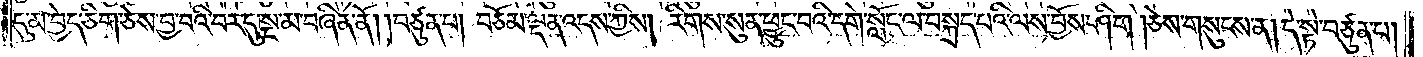དུ་མ་བྱེད་ཅིག་ཅེས་བྱ་བའི་བར་དུ་སྔ་མ་བཞིན་ནོ། །བཙུན་པ། བཅོམ་ལྡན་འདས་ཀྱིས། རིགས་སུན་ཕྱུང་བའི་དགེ་སློང་ལ་བསྐྲད་པའི་ལས་བྱོས་ཤིག །ཅེས་གསུངས་ན། དེ་སྟེ་བཙུན་པ།
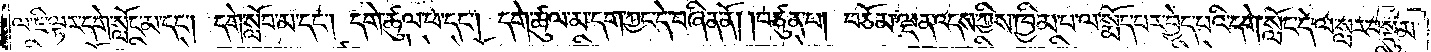ལ་ཇི་ལྟར་དགེ་སློང་མ་དང༌། དགེ་སློབ་མ་དང༌། དགེ་ཚུལ་ཕ་དང༌། དགེ་ཚུལ་མ་དག་ཀྱང་དེ་བཞིན་ནོ། །བཙུན་པ། བཅོམ་ལྡན་འདས་ཀྱིས་ཁྱིམ་པ་ལ་སྨོད་པར་བྱེད་པའི་དགེ་སློང་དེ་ལ་སླར་བསྡུམ་
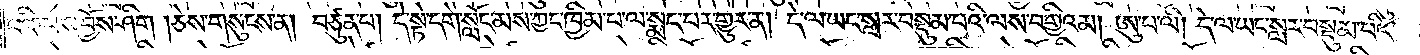པའི་ལས་བྱོས་ཤིག །ཅེས་གསུངས་ན། བཙུན་པ། དེ་སྟེ་དགེ་སློང་མས་ཀྱང་ཁྱིམ་པ་ལ་སྨད་པར་གྱུར་ན། དེ་ལ་ཡང་སླར་བསྡུམ་པའི་ལས་བགྱིའམ། ཨུ་པ་ལི། དེ་ལ་ཡང་སླར་བསྡུམ་པའི་
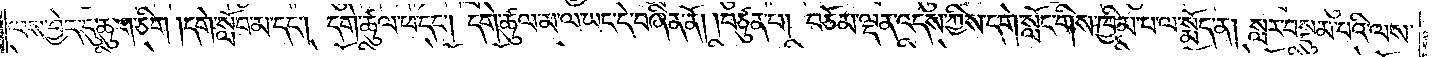ལས་བྱེད་དུ་ཆུག་ཅིག །དགེ་སློབ་མ་དང༌། དགེ་ཚུལ་ཕ་དང༌། དགེ་ཚུལ་མ་ལ་ཡང་དེ་བཞིན་ནོ། །བཙུན་པ། བཅོམ་ལྡན་འདས་ཀྱིས་དགེ་སློང་གིས་ཁྱིམ་པ་ལ་སྨོད་ན། སླར་བསྡུམ་པའི་ལས་
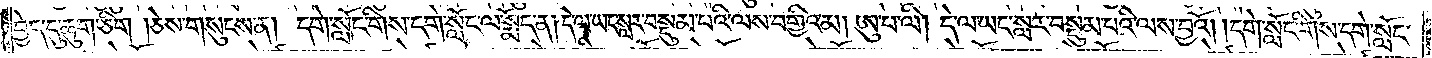བྱེད་དུ་ཆུག་ཅིག །ཅེས་གསུངས་ན། དགེ་སློང་གིས་དགེ་སློང་ལ་སྨོད་ན། དེ་ལ་ཡང་སླར་བསྡུམ་པའི་ལས་བགྱིའམ། ཨུ་པ་ལི། དེ་ལ་ཡང་སླར་བསྡུམ་པའི་ལས་བྱའོ། །དགེ་སློང་གིས་དགེ་སློང་
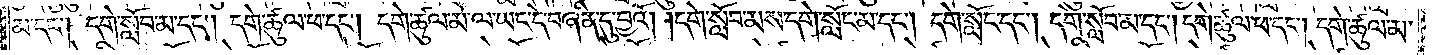མ་དང༌། དགེ་སློབ་མ་དང༌། དགེ་ཚུལ་ཕ་དང༌། དགེ་ཚུལ་མ་ལ་ཡང་དེ་བཞིན་དུ་བྱའོ། །དགེ་སློབ་མས་དགེ་སློང་མ་དང༌། དགེ་སློང་དང༌། དགེ་སློབ་མ་དང༌། དགེ་ཚུལ་ཕ་དང༌། དགེ་ཚུལ་མ་
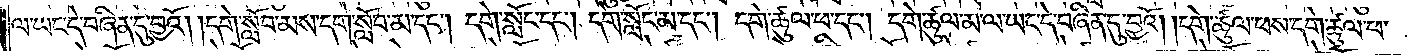ལ་ཡང་དེ་བཞིན་དུ་བྱའོ། །དགེ་སློབ་མས་དགེ་སློབ་མ་དང༌། དགེ་སློང་དང༌། དགེ་སློང་མ་དང༌། དགེ་ཚུལ་ཕ་དང༌། དགེ་ཚུལ་མ་ལ་ཡང་དེ་བཞིན་དུ་བྱའོ། །དགེ་ཚུལ་ཕས་དགེ་ཚུལ་ཕ་
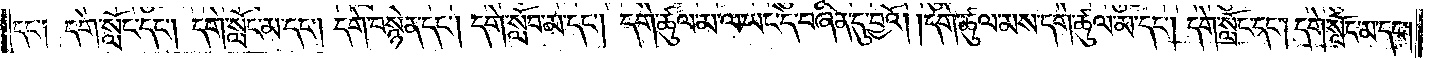དང༌། དགེ་སློང་དང༌། དགེ་སློང་མ་དང༌། དགེ་བསྙེན་དང༌། དགེ་སློབ་མ་དང༌། དགེ་ཚུལ་མ་ལ་ཡང་དེ་བཞིན་དུ་བྱའོ། །དགེ་ཚུལ་མས་དགེ་ཚུལ་མ་དང༌། དགེ་སློང་དང༌། དགེ་སློང་མ་དང༌།
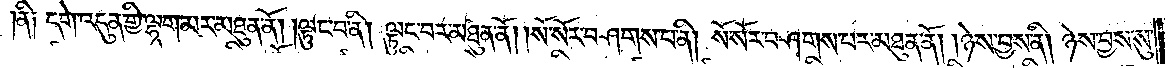ནི༑ དགེ་འདུན་གྱི་ལྷག་མར་མཐུན་ནོ། །ལྟུང་བ་ནི། ལྟུང་བར་མཐུན་ནོ། །སོ་སོར་བཤགས་པ་ནི། སོ་སོར་བཤགས་པར་མཐུན་ནོ། །ཉེས་བྱས་ནི། ཉེས་བྱས་སུ་
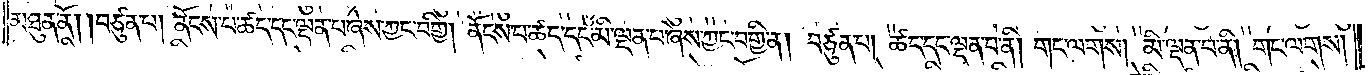མཐུན་ནོ། །བཙུན་པ། ནོངས་པ་ཚད་དང་ལྡན་པ་ཞེས་ཀྱང་བགྱི། ནོངས་པ་ཚད་དང་མི་ལྡན་པ་ཞེས་ཀྱང་བགྱི་ན། བཙུན་པ། ཚད་དང་ལྡན་པ་ནི། གང་ལགས། མི་ལྡན་པ་ནི། གང་ལགས།
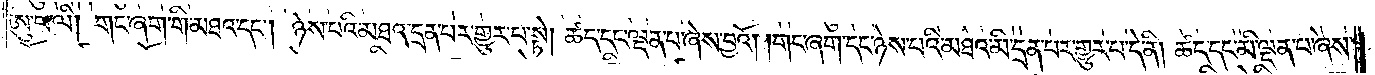ཨུ་པ་ལི། གང་ཞག་གི་མཐའ་དང༌། ཉེས་པའི་མཐའ་དྲན་པར་གྱུར་པ་སྟེ། ཚད་དང་ལྡན་པ་ཞེས་བྱའོ། །གང་ཞག་དང་ཉེས་པའི་མཐའ་མི་དྲན་པར་གྱུར་པ་དེ་ནི། ཚད་དང་མི་ལྡན་པ་ཞེས་
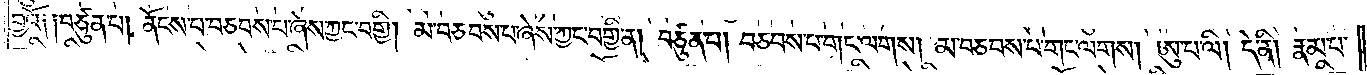བྱའོ༑ ༑བཙུན་པ། ནོངས་པ་བཅབས་པ་ཞེས་ཀྱང་བགྱི། མ་བཅབས་པ་ཞེས་ཀྱང་བགྱི་ན། བཙུན་པ། བཅབས་པ་གང་ལགས། མ་བཅབས་པ་གང་ལགས། ཨུ་པ་ལི། དེ་ནི། རྣམ་པ་
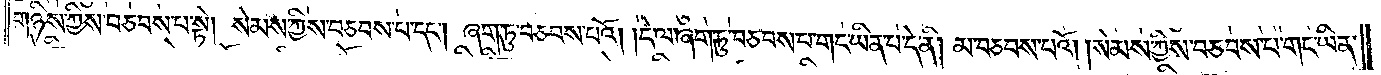གཉིས་ཀྱིས་བཅབས་པ་སྟེ། སེམས་ཀྱིས་བཅབས་པ་དང༌། ཞག་ཏུ་བཅབས་པའོ། །དེ་ལ་ཞག་ཏུ་བཅབས་པ་གང་ཡིན་པ་དེ་ནི། མ་བཅབས་པའོ། །སེམས་ཀྱིས་བཅབས་པ་གང་ཡིན་
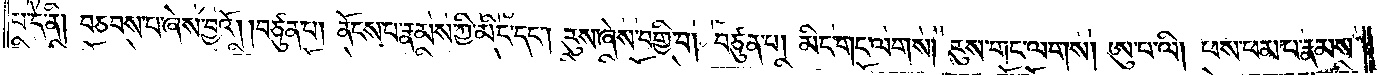པ་དེ་ནི། བཅབས་པ་ཞེས་བྱའོ། །བཙུན་པ། ནོངས་པ་རྣམས་ཀྱི་མིང་དང༌། རུས་ཞེས་བགྱི་བ། བཙུན་པ། མིང་གང་ལགས། རུས་གང་ལགས། ཨུ་པ་ལི། ཕས་ཕམ་པ་རྣམས་
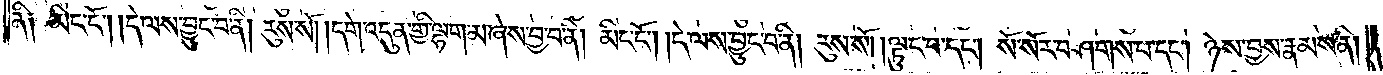ནི། མིང་ངོ༌། །དེ་ལས་བྱུང་བ་ནི། རུས་སོ། །དགེ་འདུན་གྱི་ལྷག་མ་ཞེས་བྱ་བ་ནི། མིང་ངོ༌། །དེ་ལས་བྱུང་བ་ནི། རུས་སོ། །ལྟུང་བ་དང༌། སོ་སོར་བཤགས་པ་དང༌། ཉེས་བྱས་རྣམས་ནི།
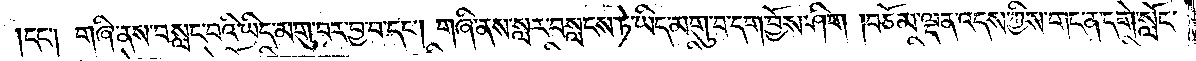དང༌། གཞི་ནས་བསླང་བའི་ཡིད་མགུ་བར་བྱ་བ་དང༌། གཞི་ནས་སླར་བསླངས་ཏེ་ཡིད་མགུ་བ་དག་བྱོས་ཤིག །བཅོམ་ལྡན་འདས་ཀྱིས་གང་ན་དགེ་སློང་
